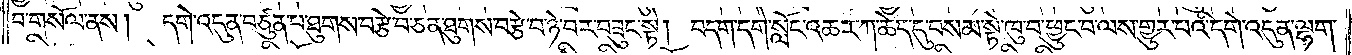བ་གསོལ་ནས། དགེ་འདུན་བཙུན་པ་ཐུགས་བརྩེ་བ་ཅན་ཐུགས་བརྩེ་བ་ཉེ་བར་བཟུང་སྟེ། བདག་དགེ་སློང་འཆར་ཀ་ཆེད་དུ་བསམ་སྟེ་ཁུ་བ་ཕྱུང་བ་ལས་གྱུར་པའི་དགེ་འདུན་ལྷག་
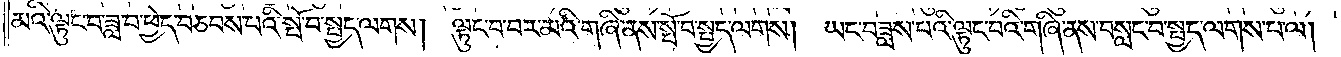མའི་ལྟུང་བ་ཟླ་བ་ཕྱེད་བཅབས་པའི་སྤོ་བ་སྤྱད་ལགས། ལྟུང་བ་བར་མའི་གཞི་ནས་སྤོ་བ་སྤྱད་ལགས། ཡང་བཟླས་པའི་ལྟུང་བའི་གཞི་ནས་བསླང་བ་སྤྱད་ལགས་པ་ལ།
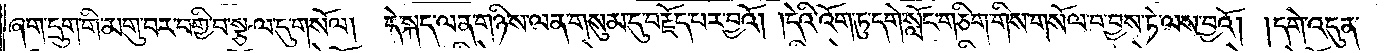ཞག་དྲུག་གི་མགུ་བར་བགྱི་བ་སྩལ་དུ་གསོལ། དེ་སྐད་ལན་གཉིས་ལན་གསུམ་དུ་བརྗོད་པར་བྱའོ། །དེའི་འོག་ཏུ་དགེ་སློང་གཅིག་གིས་གསོལ་བ་བྱས་ཏེ་ལས་བྱའོ། །དགེ་འདུན་
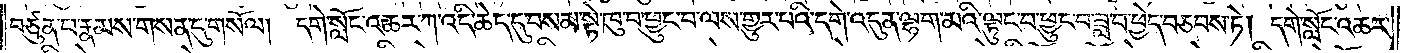བཙུན་པ་རྣམས་གསན་དུ་གསོལ། དགེ་སློང་འཆར་ཀ་འདི་ཆེད་དུ་བསམ་སྟེ་ཁུ་བ་ཕྱུང་བ་ལས་གྱུར་པའི་དགེ་འདུན་ལྷག་མའི་ལྟུང་བ་བྱུང་བ་ཟླ་བ་ཕྱེད་བཅབས་ཏེ། དགེ་སློང་འཆར་
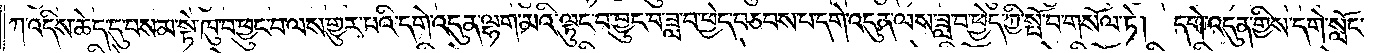ཀ་འདིས་ཆེད་དུ་བསམ་སྟེ་ཁུ་བ་ཕྱུང་བ་ལས་གྱུར་པའི་དགེ་འདུན་ལྷག་མའི་ལྟུང་བ་བྱུང་བ་ཟླ་བ་ཕྱེད་བཅབས་པ་དགེ་འདུན་ལས་ཟླ་བ་ཕྱེད་ཀྱི་སྤོ་བ་གསོལ་ཏེ། དགེ་འདུན་གྱིས་དགེ་སློང་
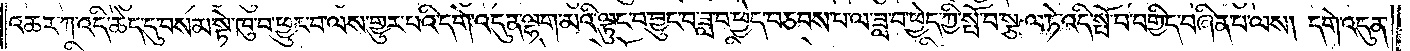འཆར་ཀ་འདི་ཆེད་དུ་བསམ་སྟེ་ཁུ་བ་ཕྱུང་བ་ལས་གྱུར་པའི་དགེ་འདུན་ལྷག་མའི་ལྟུང་བ་བྱུང་བ་ཟླ་བ་ཕྱེད་བཅབས་པ་ལ་ཟླ་བ་ཕྱེད་ཀྱི་སྤོ་བ་སྩལ་ཏེ་འདི་སྤོ་བ་བགྱིད་བཞིན་པ་ལས། དགེ་འདུན་
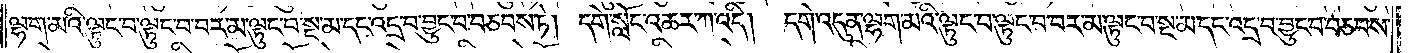ལྷག་མའི་ལྟུང་བ་ལྟུང་བ་བར་མ་ལྟུང་བ་སྔ་མ་དང་འདྲ་བ་བྱུང་བ་བཅབས་ཏེ། དགེ་སློང་འཆར་ཀ་འདི། དགེ་འདུན་ལྷག་མའི་ལྟུང་བ་ལྟུང་བ་བར་མ་ལྟུང་བ་སྔ་མ་དང་འདྲ་བ་བྱུང་བ་བཅབས་
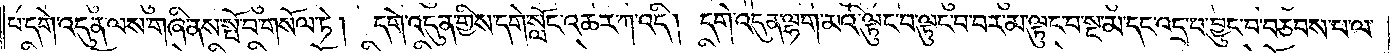པ་དགེ་འདུན་ལས་གཞི་ནས་སྤོ་བ་གསོལ་ཏེ། དགེ་འདུན་གྱིས་དགེ་སློང་འཆར་ཀ་འདི། དགེ་འདུན་ལྷག་མའི་ལྟུང་བ་ལྟུང་བ་བར་མ་ལྟུང་བ་སྔ་མ་དང་འདྲ་བ་བྱུང་བ་བཅབས་པ་ལ་
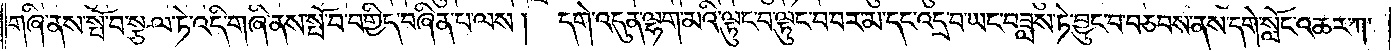གཞི་ནས་སྤོ་བ་སྩལ་ཏེ་འདི་གཞི་ནས་སྤོ་བ་བགྱིད་བཞིན་པ་ལས། དགེ་འདུན་ལྷག་མའི་ལྟུང་བ་ལྟུང་བ་བར་མ་དང་འདྲ་བ་ཡང་བཟླས་ཏེ་བྱུང་བ་བཅབས་ནས་དགེ་སློང་འཆར་ཀ་
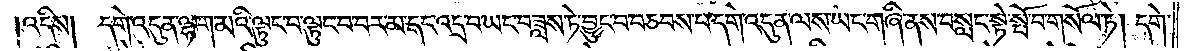འདིས། དགེ་འདུན་ལྷག་མའི་ལྟུང་བ་ལྟུང་བ་བར་མ་དང་འདྲ་བ་ཡང་བཟླས་ཏེ་བྱུང་བ་བཅབས་པ་དགེ་འདུན་ལས་ཡང་གཞི་ནས་བསླང་སྟེ་སྤོ་བ་གསོལ་ཏེ། དགེ་
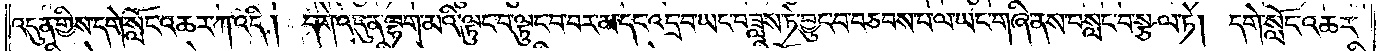འདུན་གྱིས་དགེ་སློང་འཆར་ཀ་འདི། དགེ་འདུན་ལྷག་མའི་ལྟུང་བ་ལྟུང་བ་བར་མ་དང་འདྲ་བ་ཡང་བཟླས་ཏེ་བྱུང་བ་བཅབས་པ་ལ་ཡང་གཞི་ནས་བསླང་བ་སྩལ་ཏེ། དགེ་སློང་འཆར་
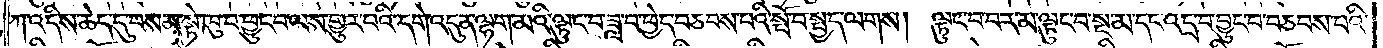ཀ་འདིས་ཆེད་དུ་བསམ་སྟེ་ཁུ་བ་ཕྱུང་བ་ལས་གྱུར་པའི་དགེ་འདུན་ལྷག་མའི་ལྟུང་བ་ཟླ་བ་ཕྱེད་བཅབས་པའི་སྤོ་བ་སྤྱད་ལགས། ལྟུང་བ་བར་མ་ལྟུང་བ་སྔ་མ་དང་འདྲ་བ་བྱུང་བ་བཅབས་པའི་
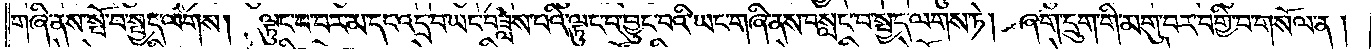གཞི་ནས་སྤོ་བ་སྤྱད་ལགས། ལྟུང་བ་བར་མ་དང་འདྲ་བ་ཡང་བཟླས་པའི་ལྟུང་བ་བྱུང་བའི་ཡང་གཞི་ནས་བསླང་བ་སྤྱད་ལགས་ཏེ། ཞག་དྲུག་གི་མགུ་བར་བགྱི་བ་གསོལ་ན།
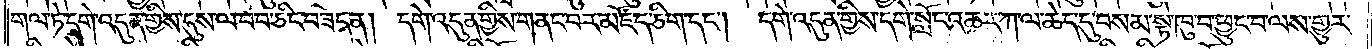གལ་ཏེ་དགེ་འདུན་གྱིས་དུས་ལ་བབ་ཅིང་བཟེད་ན། དགེ་འདུན་གྱིས་གནང་བར་མཛོད་ཅིག་དང༌། དགེ་འདུན་གྱིས་དགེ་སློང་འཆར་ཀ་ལ་ཆེད་དུ་བསམ་སྟེ་ཁུ་བ་ཕྱུང་བ་ལས་གྱུར་
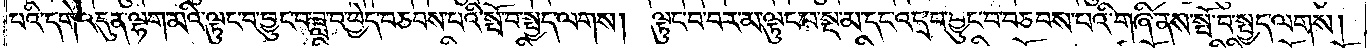པའི་དགེ་འདུན་ལྷག་མའི་ལྟུང་བ་བྱུང་བ་ཟླ་བ་ཕྱེད་བཅབས་པའི་སྤོ་བ་སྤྱད་ལགས། ལྟུང་བ་བར་མ་ལྟུང་བ་སྔ་མ་དང་འདྲ་བ་བྱུང་བ་བཅབས་པའི་གཞི་ནས་སྤོ་བ་སྤྱད་ལགས།
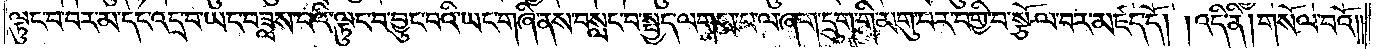ལྟུང་བ་བར་མ་དང་འདྲ་བ་ཡང་བཟླས་པའི་ལྟུང་བ་བྱུང་བའི་ཡང་གཞི་ནས་བསླང་བ་སྤྱད་ལགས་པ་ལ་ཞག་དྲུག་གི་མགུ་བར་བགྱི་བ་སྩོལ་བར་མཛད་དོ། །འདི་ནི། གསོལ་བའོ༎
